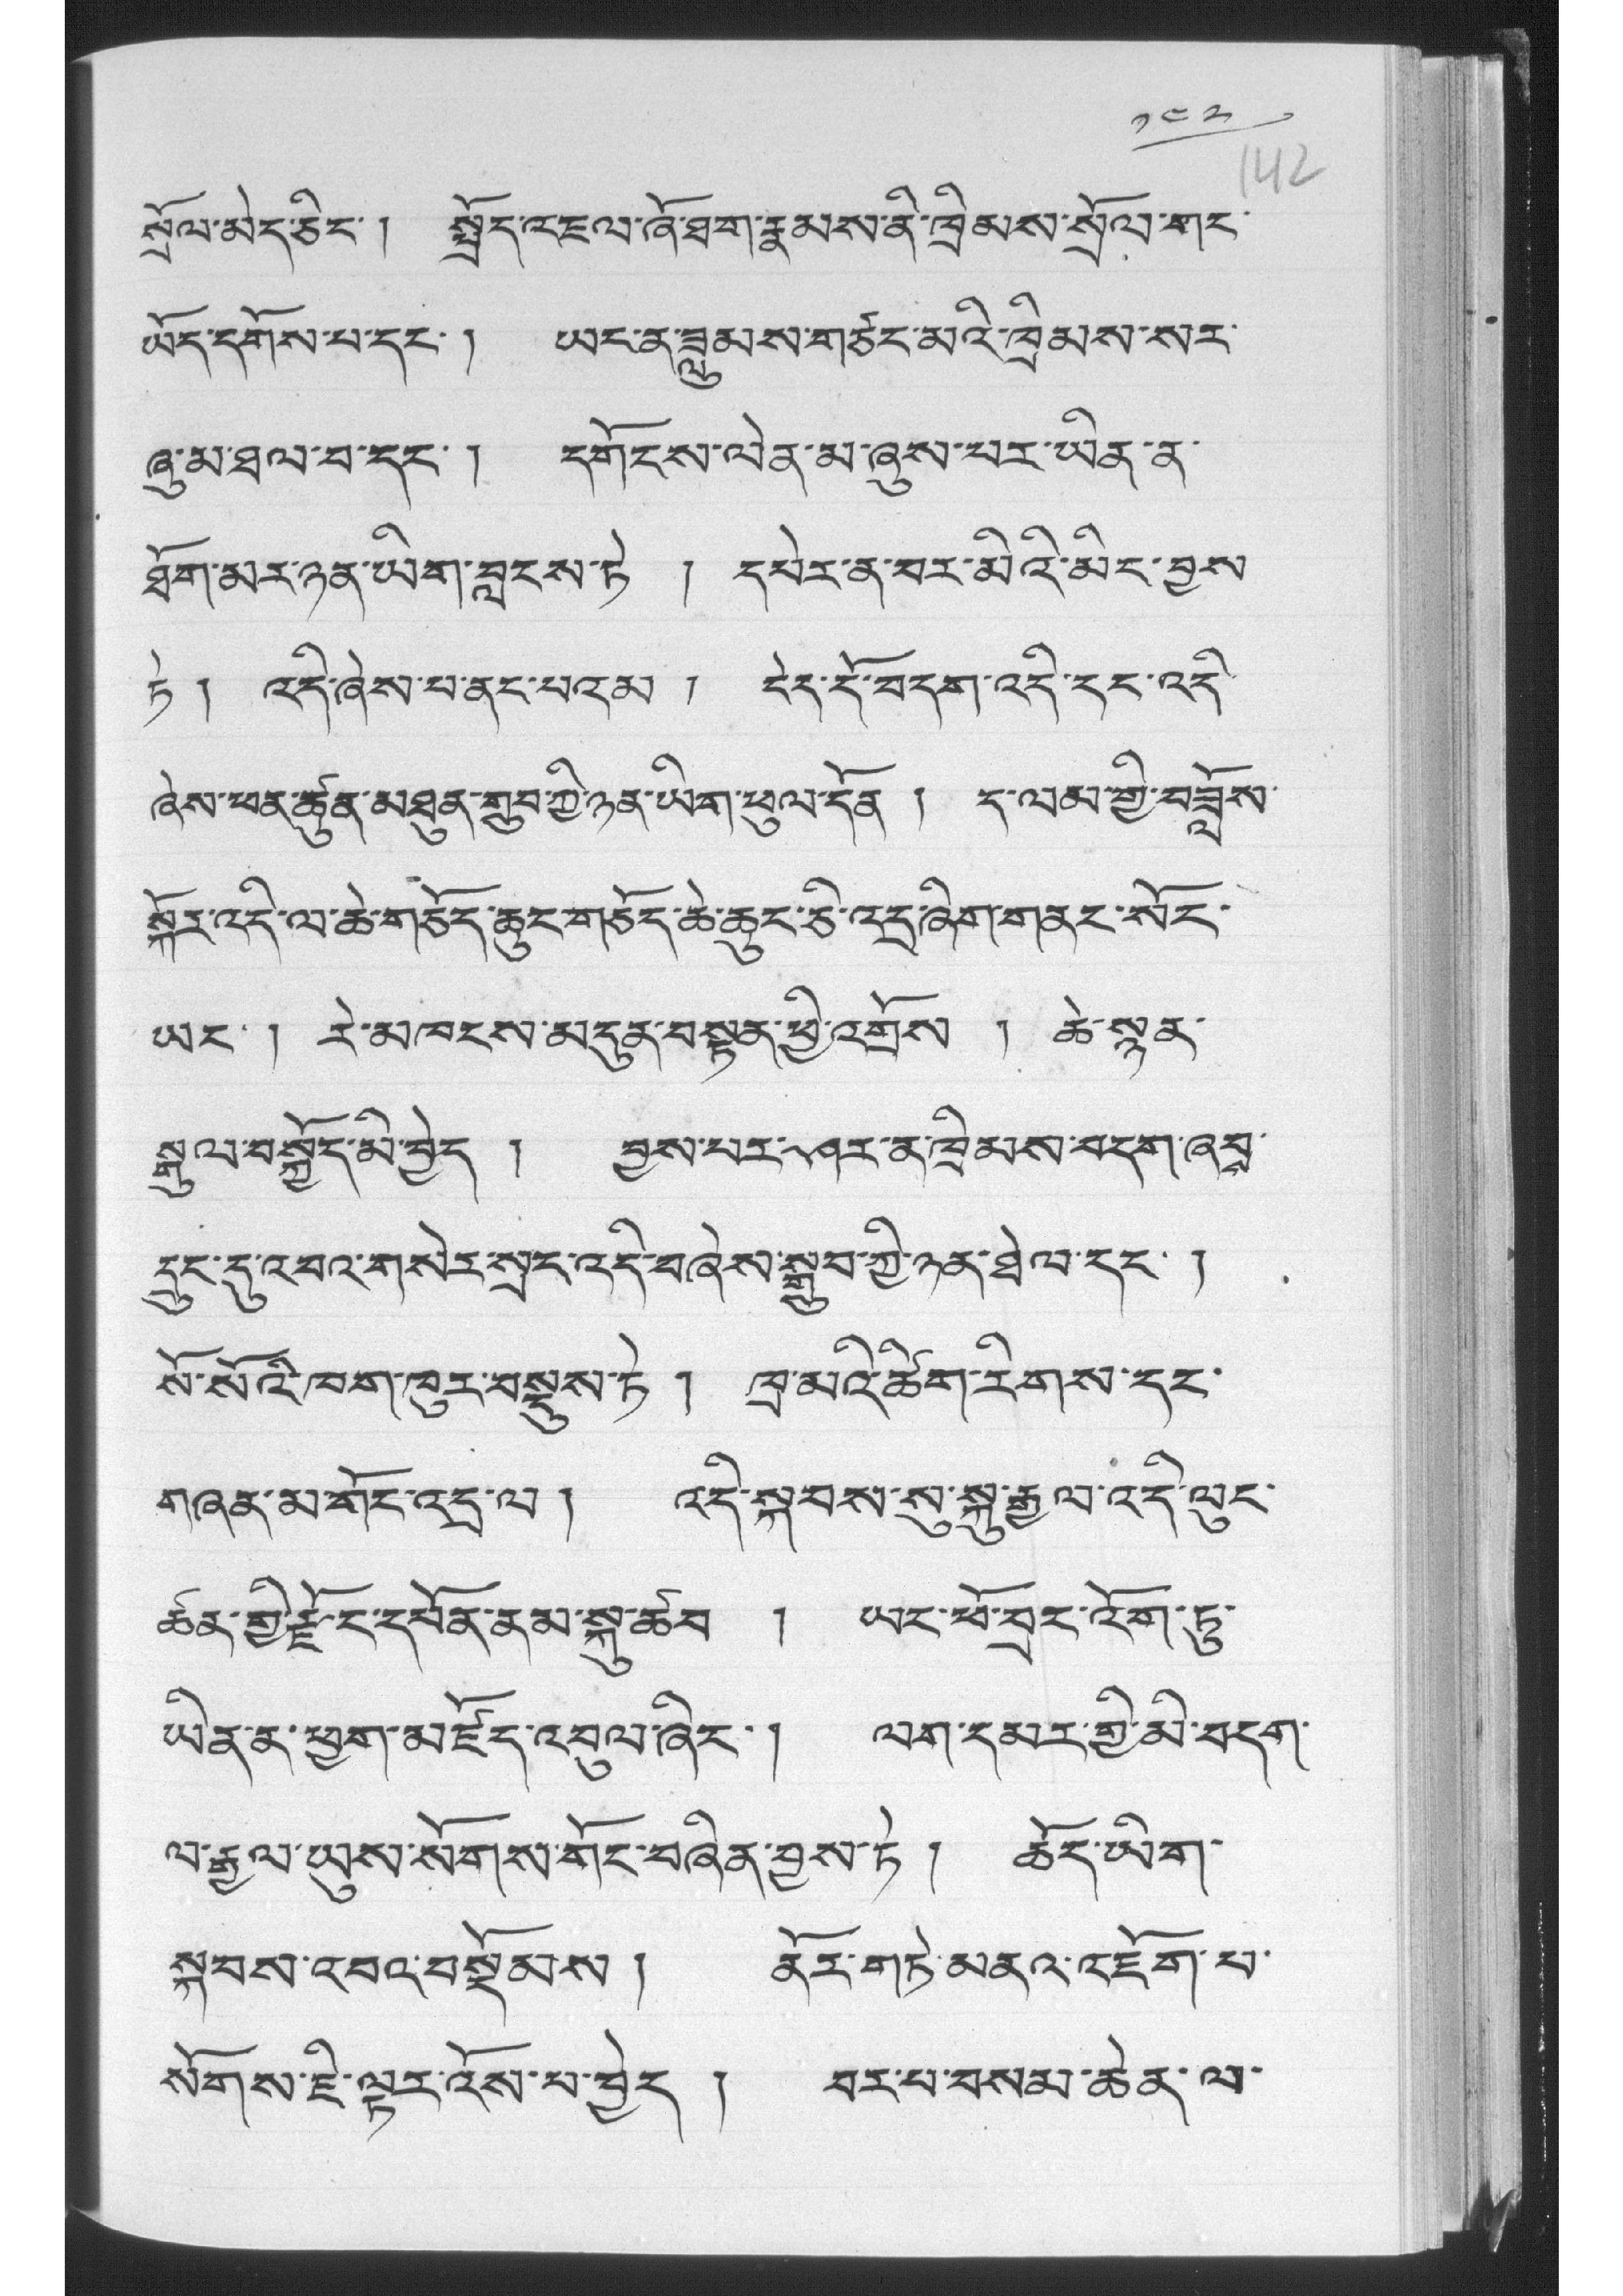༡༤༢
སྲོལ་མེད་ཅིང་། སྤྲོད་འཇལ་ཞོ་ཐག་རྣམས་ནི་ཁྲིམས་སྲོལ་གང་
ཡོད་དགོས་པ་དང་། ཡང་ན་ཟླུམས་གཙང་མའི་ཁྲིམས་སར་
ཞུ་མ་ཐལ་བ་དང་ ། དགོངས་ལེན་མ་ཞུས་པར་ཡིན་ན་
ཐོག་མར་ཉན་ཡིག་བླངས་ཏེ ། དཔེར་ན་བར་མིའི་མང་བྱས་
ཏེ ། འདི་ཞེས་པ་ནང་པའམ ། ངེད་དོ་བདག་འདི་དང་འདི་
ཞེས་ཕན་ཚུན་མཐུན་གྲུབ་ཀྱི་ཉན་ཡིག་ཕུལ་དོན ། ད་ལམ་གྱི་བཟློས་
སྐོར་འདི་ལ་ཆེ་གཅོད་ཆུང་གཅོད་ཆེ་ཆུང་ཅི་འདྲ་ཞིག་གནང་སོང་
ཡང་། རེ་མཁངས་མདུན་བསྟན་ཕྱི་འགྲོས ། ཚེ་སྙན་
སྒུལ་བསྐྱོད་མི་བྱེད ། བྱས་པར་ཤར་ན་ཁྲིམས་བདག་ཞབས་
དྲུང་དུ་འབའ་གསེར་སྲང་འདི་བཞེས་སྒྲུབ་ཀྱི་ཉན་ཐེལ་དང་ །
སོ་སོའི་ཁག་ཁུར་བསྡུས་ཏེ ། ཁྲ་མའི་ཚིག་རིགས་དང་
གཞན་མ་གོང་འདྲ་ལ ། འདི་སྐབས་སུ་སྐུ་རྒྱལ་འདི་ལུང་
ཚན་གྱི་རྫོང་དཔོན་ནམ་སྐུ་ཚབ ། ཡང་ཕོ་བྲང་འོག་ཏུ་
ཡིན་ན་ཕྱག་མཛོད་འབུལ་ཞིང་། ལག་དམར་གྱི་མི་བདག་
ལ་རྒྱལ་ཡུས་སོགས་གོང་བཞིན་བྱས་ཏེ ། ཆོད་ཡིག་
སྐབས་འབའ་བསྡོམས། ནོར་གཏེ་མནའ་འཇོག་པ་
སོགས་ཇི་ལྟར་འོས་པ་བྱེད ། བར་པ་བསམ་ཆེན་ལ་
